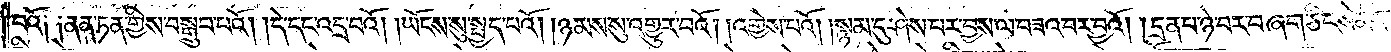བའོ༑ ༑ནན་ཏན་གྱིས་བསྒྲུབ་པའོ། །དེ་དང་འདྲ་བའོ། །ཡོངས་སུ་སྤྱད་པའོ། །ཉམས་སུ་འགྱུར་བའོ། །འགྱེས་པའོ། །སྙམ་དུ་ཤེས་པར་བྱས་ལ་བཟའ་བར་བྱའོ། །དྲན་པ་ཉེ་བར་བཞག་ཅིང་སེམས་
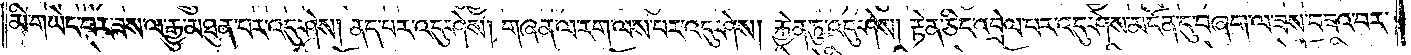མི་གཡེང་བར་ཟས་ལ་རྒྱུ་མཐུན་པར་འདུ་ཤེས། ནད་པར་འདུ་ཤེས། གཞན་ལ་རག་ལས་པར་འདུ་ཤེས། རྐྱེན་ཏུ་འདུ་ཤེས། རྟེན་ཅིང་འབྲེལ་པར་འདུ་ཤེས་མངོན་དུ་བཞག་ལ་ཟས་བཟའ་བར་
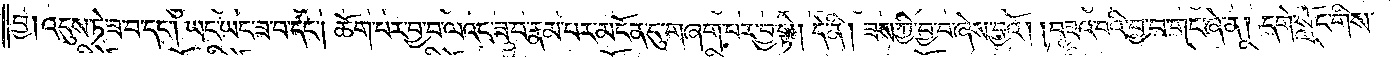བྱ༑ འདུས་ཏེ་ཟ་བ་དང༌། ཡང་ཡང་ཟ་བ་དང༌། ཆོག་པར་བྱ་བ་ལའང་ཟ་བ་རྣམ་པར་མངོན་དུ་གཞག་པར་བྱ་སྟེ། དེ་ནི། ཟས་ཀྱི་བྱ་བ་ཞེས་བྱའོ། །བཟའ་བའི་བྱ་བ་གང་ཞེ་ན། དགེ་སློང་གིས་
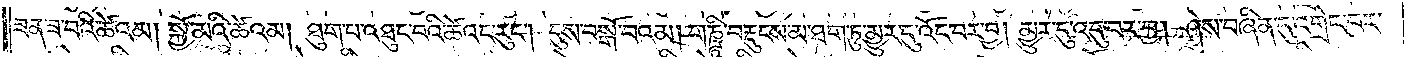ཟན་ཟ་བའི་ཚེའམ། སྐྱོ་མའི་ཚེའམ། ཐུག་པ་འཐུང་བའི་ཚེའང་རུང༌། །དུས་བསྒོ་བའམ། གཎྜཱི་བརྡུངས་མ་ཐག་ཏུ་མྱུར་དུ་འོང་བར་བྱ། མྱུར་དུ་འདུ་བར་བྱ། ཤེས་བཞིན་དུ་འགྲེང་བར་
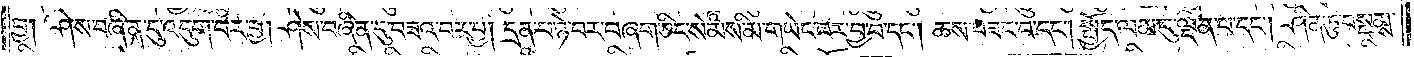བྱ། ཤེས་བཞིན་དུ་འདུག་པར་བྱ། ཤེས་བཞིན་དུ་བཟའ་བར་བྱ། དྲན་པ་ཉེ་བར་བཞག་ཅིང་སེམས་མི་གཡེང་བར་བྱ་བ་དང༌། ཆས་བཟང་བ་དང༌། སྤྱོད་ལམ་དུ་ལྡན་པ་དང༌། ཤིན་ཏུ་བསྡམས་
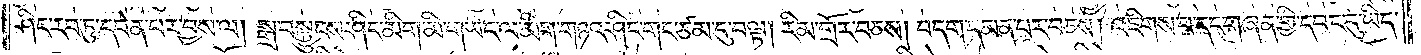ཤིང་རབ་ཏུ་དབེན་པར་བྱས་ལ། སྒྲ་བསྐྱུངས་ཤིང་མིག་མི་གཡེང་ལ་མིག་གཉའ་ཤིང་གང་ཙམ་དུ་བལྟ། རིམ་གྲོར་བཅས། བདག་དམན་པར་བཅས། འཇིགས་པ་དང་གཞན་གྱི་དབང་དུ་ཡིད་
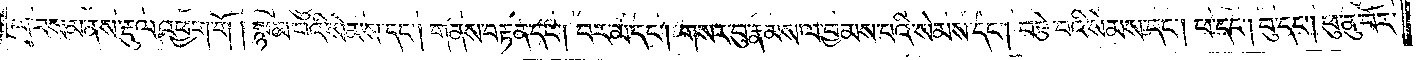ལ་བསམ་ནས་རྡུལ་འཕྱག་གོ །སྙམ་པའི་སེམས་དང༌། གནས་བརྟན་དང༌། བར་མ་དང༌། གསར་བུ་རྣམས་ལ་བྱམས་པའི་སེམས་དང༌། བརྩེ་བའི་སེམས་དང༌། ཕ་དང༌། བུ་དང༌། ཕུ་ནུ་བོར་
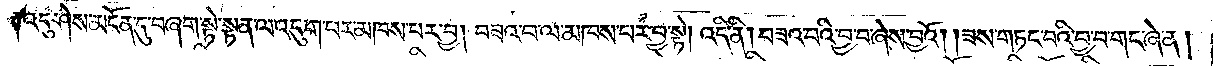འདུ་ཤེས་མངོན་དུ་བཞག་སྟེ་སྟན་ལ་འདུག་པར་མཁས་པར་བྱ། བཟའ་བ་ལ་མཁས་པར་བྱ་སྟེ། འདི་ནི། བཟའ་བའི་བྱ་བ་ཞེས་བྱའོ། །ཟས་གཏང་བའི་བྱ་བ་གང་ཞེ་ན་།
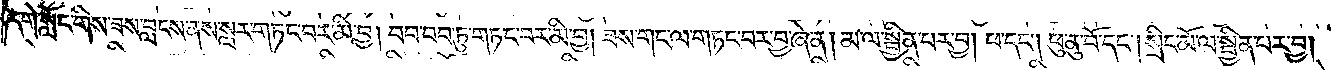དགེ་སློང་གིས་ཟས་བླངས་ནས་སླར་གཏང་བར་མི་བྱ། བབ་བབ་ཏུ་གཏང་བར་མི་བྱ། ཟས་གང་ལ་གཏང་བར་བྱ་ཞེ་ན། མ་ལ་སྦྱིན་པར་བྱ། ཕ་དང༌། ཕུ་ནུ་བོ་དང༌། སྲིང་མོ་ལ་སྦྱིན་པར་བྱ།
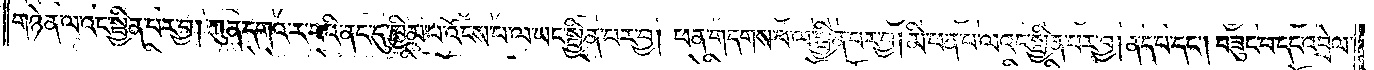གཉེན་ལའང་སྦྱིན་པར་བྱ། ཀུན་དགའ་ར་བའི་ནང་དུ་ཁྱིམ་པ་འོངས་པ་ལ་ཡང་སྦྱིན་པར་བྱ། ཕན་གདགས་པ་ལ་སྦྱིན་པར་བྱ། མི་ཕན་པ་ལའང་སྦྱིན་པར་བྱ། ནད་པ་དང༌། བཟུང་བ་དང་འབྲེལ་
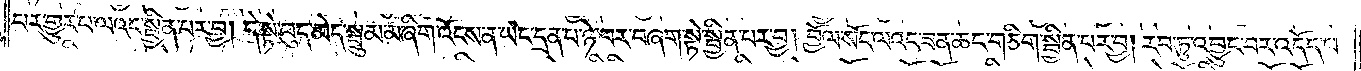པར་གྱུར་པ་ལའང་སྦྱིན་པར་བྱ། དེ་སྟེ་བུད་མེད་སྦྲུམ་མ་ཞིག་འོངས་ན་ཡང་དྲན་པ་ཉེ་བར་བཞག་སྟེ་སྦྱིན་པར་བྱ། བྱོལ་སོང་ལའང་ཟན་ཆང་གཅིག་སྦྱིན་པར་བྱ། རབ་ཏུ་འབྱུང་བར་འདོད་པ་
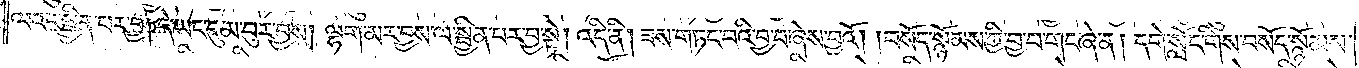ལའང་སྦྱིན་པར་བྱ། དེ་ཡང་དུམ་བུར་བྱས། ལྷག་མར་བྱས་ལ་སྦྱིན་པར་བྱ་སྟེ། འདི་ནི། ཟས་གཏང་བའི་བྱ་བ་ཞེས་བྱའོ། །བསོད་སྙོམས་ཀྱི་བྱ་བ་གང་ཞེ་ན། དགེ་སློང་གིས་བསོད་སྙོམས་
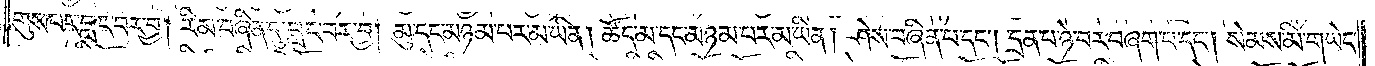གུས་པར་བླང་བར་བྱ། རིམ་བཞིན་དུ་བླང་བར་བྱ། མུ་དང་མཉམ་པར་མ་ཡིན། ཚོད་མ་དང་མཉམ་པར་མ་ཡིན། ཤེས་བཞིན་པ་དང༌། དྲན་པ་ཉེ་བར་བཞག་པ་དང༌། སེམས་མི་གཡེང་
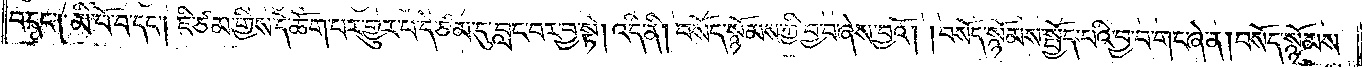བ་དང༌། མི་བོ་བ་དང༌། ཇི་ཙམ་གྱིས་དེ་ཆོག་པར་གྱུར་པ་དེ་ཙམ་དུ་བླང་བར་བྱ་སྟེ། འདི་ནི། བསོད་སྙོམས་ཀྱི་བྱ་བ་ཞེས་བྱའོ། །བསོད་སྙོམས་སྤྱོད་པའི་བྱ་བ་གང་ཞེ་ན་།བསོད་སྙོམས་
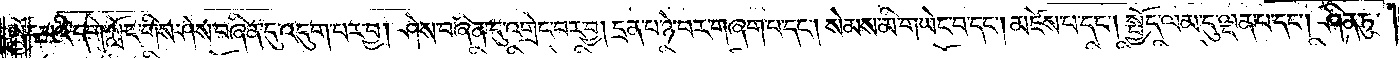སྤྱོད་པའི་དགེ་སློང་གིས་ཤེས་བཞིན་དུ་འདུག་པར་བྱ། ཤེས་བཞིན་དུ་འགྲེང་བར་བྱ། དྲན་པ་ཉེ་བར་གཞག་པ་དང༌། སེམས་མི་གཡེང་བ་དང༌། མཛེས་པ་དང༌། སྤྱོད་ལམ་དུ་ལྡན་པ་དང༌། ཤིན་ཏུ་
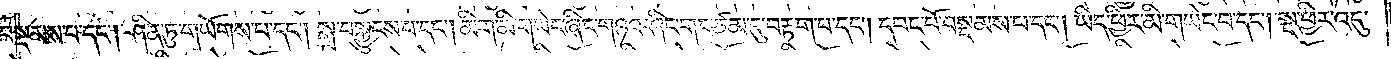བསྡམས་པ་དང༌། ཤིན་ཏུ་གཡོགས་པ་དང༌། སྒྲ་བསྐྱུངས་པ་དང༌། མིག་མི་གཡེང་ཞིང་གཉའ་ཤིང་གང་ཙམ་དུ་བརྟག་པ་དང༌། དབང་པོ་བསྡམས་པ་དང༌། ཡིད་ཕྱིར་མི་གཡེང་བ་དང༌། སྔ་ཕྱིར་འདུ་
